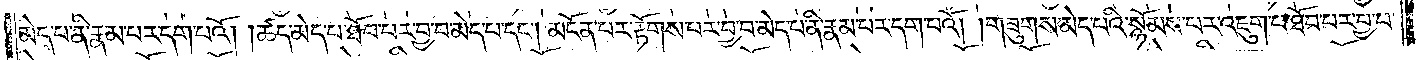མེད་པ་ནི་རྣམ་པར་དག་པའོ། །ཚད་མེད་པ་ཐོབ་པར་བྱ་བ་མེད་པ་དང༌། མངོན་པར་རྟོགས་པར་བྱ་བ་མེད་པ་ནི་རྣམ་པར་དག་པའོ། །གཟུགས་མེད་པའི་སྙོམས་པར་འཇུག་པ་ཐོབ་པར་བྱ་བ་
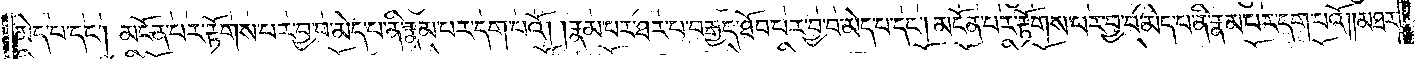མེད་པ་དང༌། མངོན་པར་རྟོགས་པར་བྱ་བ་མེད་པ་ནི་རྣམ་པར་དག་པའོ། །རྣམ་པར་ཐར་པ་བརྒྱད་ཐོབ་པར་བྱ་བ་མེད་པ་དང༌། མངོན་པར་རྟོགས་པར་བྱ་བ་མེད་པ་ནི་རྣམ་པར་དག་པའོ། །མཐར་
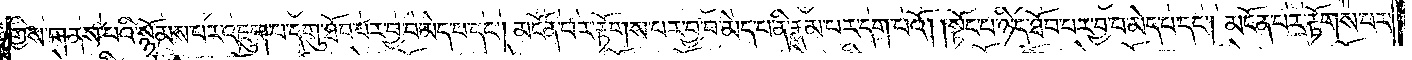གྱིས་གནས་པའི་སྙོམས་པར་འཇུག་པ་དགུ་ཐོབ་པར་བྱ་བ་མེད་པ་དང༌། མངོན་པར་རྟོགས་པར་བྱ་བ་མེད་པ་ནི་རྣམ་པར་དག་པའོ། །སྟོང་པ་ཉིད་ཐོབ་པར་བྱ་བ་མེད་པ་དང༌། མངོན་པར་རྟོགས་པར་
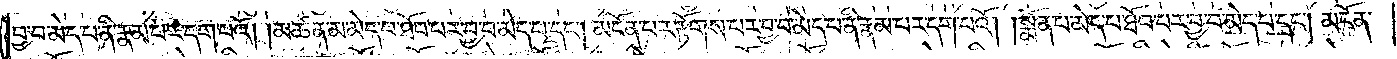བྱ་བ་མེད་པ་ནི་རྣམ་པར་དག་པའོ། །མཚན་མ་མེད་པ་ཐོབ་པར་བྱ་བ་མེད་པ་དང༌། མངོན་པར་རྟོགས་པར་བྱ་བ་མེད་པ་ནི་རྣམ་པར་དག་པའོ། །སྨོན་པ་མེད་པ་ཐོབ་པར་བྱ་བ་མེད་པ་དང༌། མངོན་
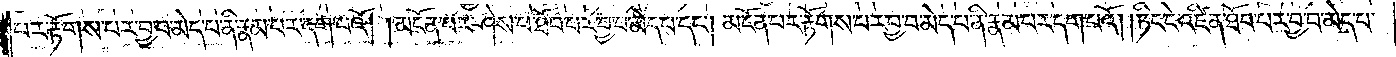པར་རྟོགས་པར་བྱ་བ་མེད་པ་ནི་རྣམ་པར་དག་པའོ། །མངོན་པར་ཤེས་པ་ཐོབ་པར་བྱ་བ་མེད་པ་དང༌། མངོན་པར་རྟོགས་པར་བྱ་བ་མེད་པ་ནི་རྣམ་པར་དག་པའོ། །ཏིང་ངེ་འཛིན་ཐོབ་པར་བྱ་བ་མེད་པ་
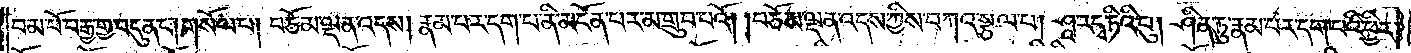བམ་པོ་བརྒྱ་གྱ་བདུན་པ། གསོལ་པ། བཅོམ་ལྡན་འདས། རྣམ་པར་དག་པ་ནི་མངོན་པར་མ་གྲུབ་པའོ། །བཅོམ་ལྡན་འདས་ཀྱིས་བཀའ་སྩལ་པ། ཤཱ་ར་དྭ་ཏིའི་བུ། ཤིན་ཏུ་རྣམ་པར་དག་པའི་ཕྱིར་
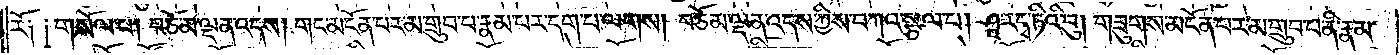རོ༑ ༑གསོལ་པ། བཅོམ་ལྡན་འདས། གང་མངོན་པར་མ་གྲུབ་པ་རྣམ་པར་དག་པ་ལགས། བཅོམ་ལྡན་འདས་ཀྱིས་བཀའ་སྩལ་པ། ཤཱ་ར་དྭ་ཏིའི་བུ། གཟུགས་མངོན་པར་མ་གྲུབ་པ་ནི་རྣམ་
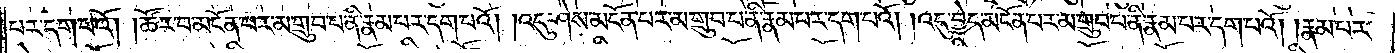པར་དག་པའོ། །ཚོར་བ་མངོན་པར་མ་གྲུབ་པ་ནི་རྣམ་པར་དག་པའོ། །འདུ་ཤེས་མངོན་པར་མ་གྲུབ་པ་ནི་རྣམ་པར་དག་པའོ། །འདུ་བྱེད་མངོན་པར་མ་གྲུབ་པ་ནི་རྣམ་པར་དག་པའོ། །རྣམ་པར་
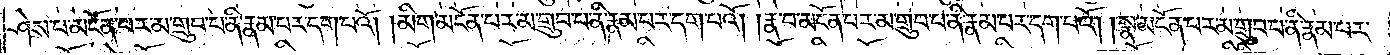ཤེས་པ་མངོན་པར་མ་གྲུབ་པ་ནི་རྣམ་པར་དག་པའོ། །མིག་མངོན་པར་མ་གྲུབ་པ་ནི་རྣམ་པར་དག་པའོ། །རྣ་བ་མངོན་པར་མ་གྲུབ་པ་ནི་རྣམ་པར་དག་པའོ། །སྣ་མངོན་པར་མ་གྲུབ་པ་ནི་རྣམ་པར་
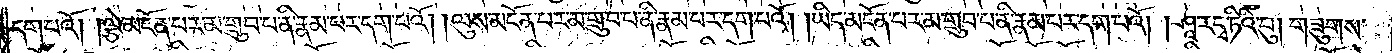དག་པའོ། །ལྕེ་མངོན་པར་མ་གྲུབ་པ་ནི་རྣམ་པར་དག་པའོ། །ལུས་མངོན་པར་མ་གྲུབ་པ་ནི་རྣམ་པར་དག་པའོ། །ཡིད་མངོན་པར་མ་གྲུབ་པ་ནི་རྣམ་པར་དག་པའོ། །ཤཱ་ར་དྭ་ཏིའི་བུ། གཟུགས་
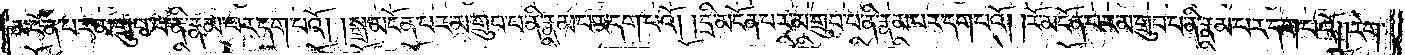མངོན་པར་མ་གྲུབ་པ་ནི་རྣམ་པར་དག་པའོ། །སྒྲ་མངོན་པར་མ་གྲུབ་པ་ནི་རྣམ་པར་དག་པའོ། །དྲི་མངོན་པར་མ་གྲུབ་པ་ནི་རྣམ་པར་དག་པའོ། །རོ་མངོན་པར་མ་གྲུབ་པ་ནི་རྣམ་པར་དག་པའོ། །རེག་
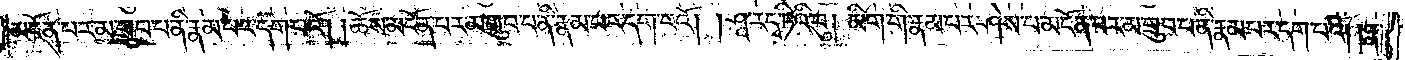མངོན་པར་མ་གྲུབ་པ་ནི་རྣམ་པར་དག་པའོ། །ཆོས་མངོན་པར་མ་གྲུབ་པ་ནི་རྣམ་པར་དག་པའོ། །ཤཱ་རདྭ་ཏིའི་བུ། མིག་གི་རྣམ་པར་ཤེས་པ་མངོན་པར་མ་གྲུབ་པ་ནི་རྣམ་པར་དག་པའོ། །རྣ་
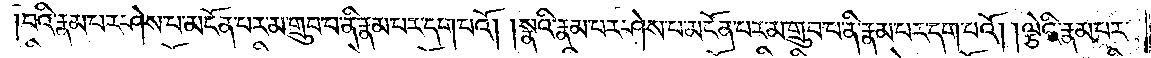བའི་རྣམ་པར་ཤེས་པ་མངོན་པར་མ་གྲུབ་པ་ནི་རྣམ་པར་དག་པའོ། །སྣའི་རྣམ་པར་ཤེས་པ་མངོན་པར་མ་གྲུབ་པ་ནི་རྣམ་པར་དག་པའོ། །ལྕེའི་རྣམ་པར་
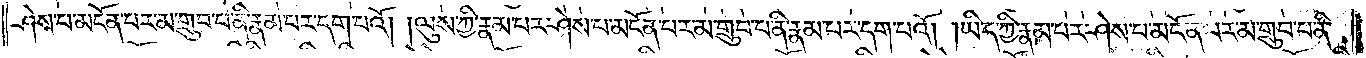ཤེས་པ་མངོན་པར་མ་གྲུབ་པ་ནི་རྣམ་པར་དག་པའོ། །ལུས་ཀྱི་རྣམ་པར་ཤེས་པ་མངོན་པར་མ་གྲུབ་པ་ནི་རྣམ་པར་དག་པའོ། །ཡིད་ཀྱི་རྣམ་པར་ཤེས་པ་མངོན་པར་མ་གྲུབ་པ་ནི་
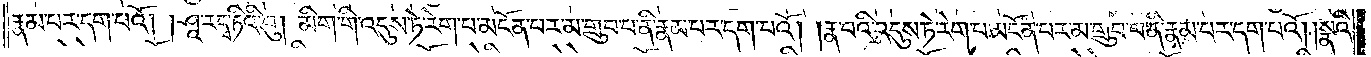རྣམ་པར་དག་པའོ། །ཤཱ་རདྭ་ཏིའི་བུ། མིག་གི་འདུས་ཏེ་རེག་པ་མངོན་པར་མ་གྲུབ་པ་ནི་རྣམ་པར་དག་པའོ། །རྣ་བའི་འདུས་ཏེ་རེག་པ་མངོན་པར་མ་གྲུབ་པ་ནི་རྣམ་པར་དག་པའོ། །སྣའི་
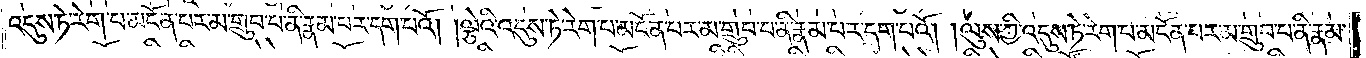འདུས་ཏེ་རེག་པ་མངོན་པར་མ་གྲུབ་པ་ནི་རྣམ་པར་དག་པའོ། །ལྕེའི་འདུས་ཏེ་རེག་པ་མངོན་པར་མ་གྲུབ་པ་ནི་རྣམ་པར་དག་པའོ། །ལུས་ཀྱི་འདུས་ཏེ་རེག་པ་མངོན་པར་མ་གྲུབ་པ་ནི་རྣམ་
